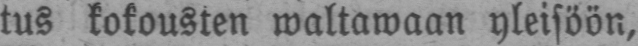tus kokousten waltawaan yleisöön,
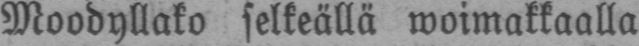Moodyllako selkeällä woimakkaalla
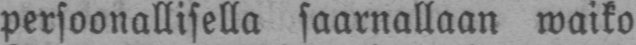persoonallisella saarnallaan waiko
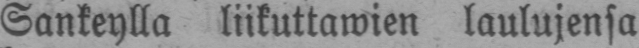Sankeylla liikuttawien laulujensa
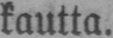kautta.
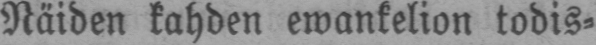Näiden kahden ewankelion todis-
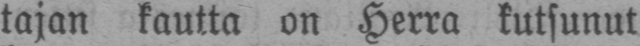tajan kautta on Herra kutsunut
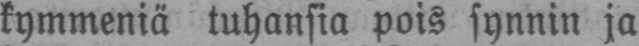kymmeniä tuhansia pois synnin ja
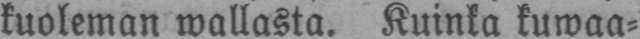kuoleman wallasta. Kuinka kuwaa-
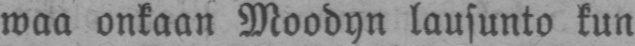waa onkaan Moodyn lausunto kun
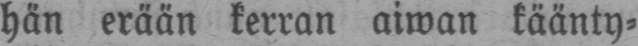hän erään kerran aiwan käänty-
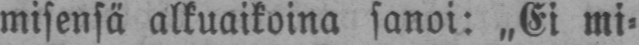misensä alkuaikoina sanoi: „Ei mi-
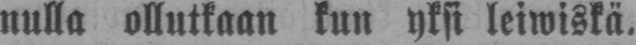nulla ollutkaan kun yksi leiwiskä.
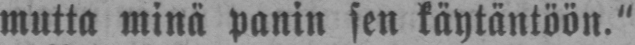mutta minä panin sen käytäntöön."
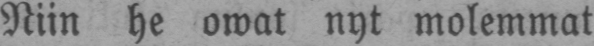Niin he owat nyt molemmat
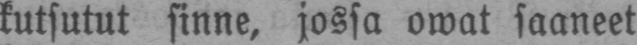kutsutut sinne, jossa owat saaneet
